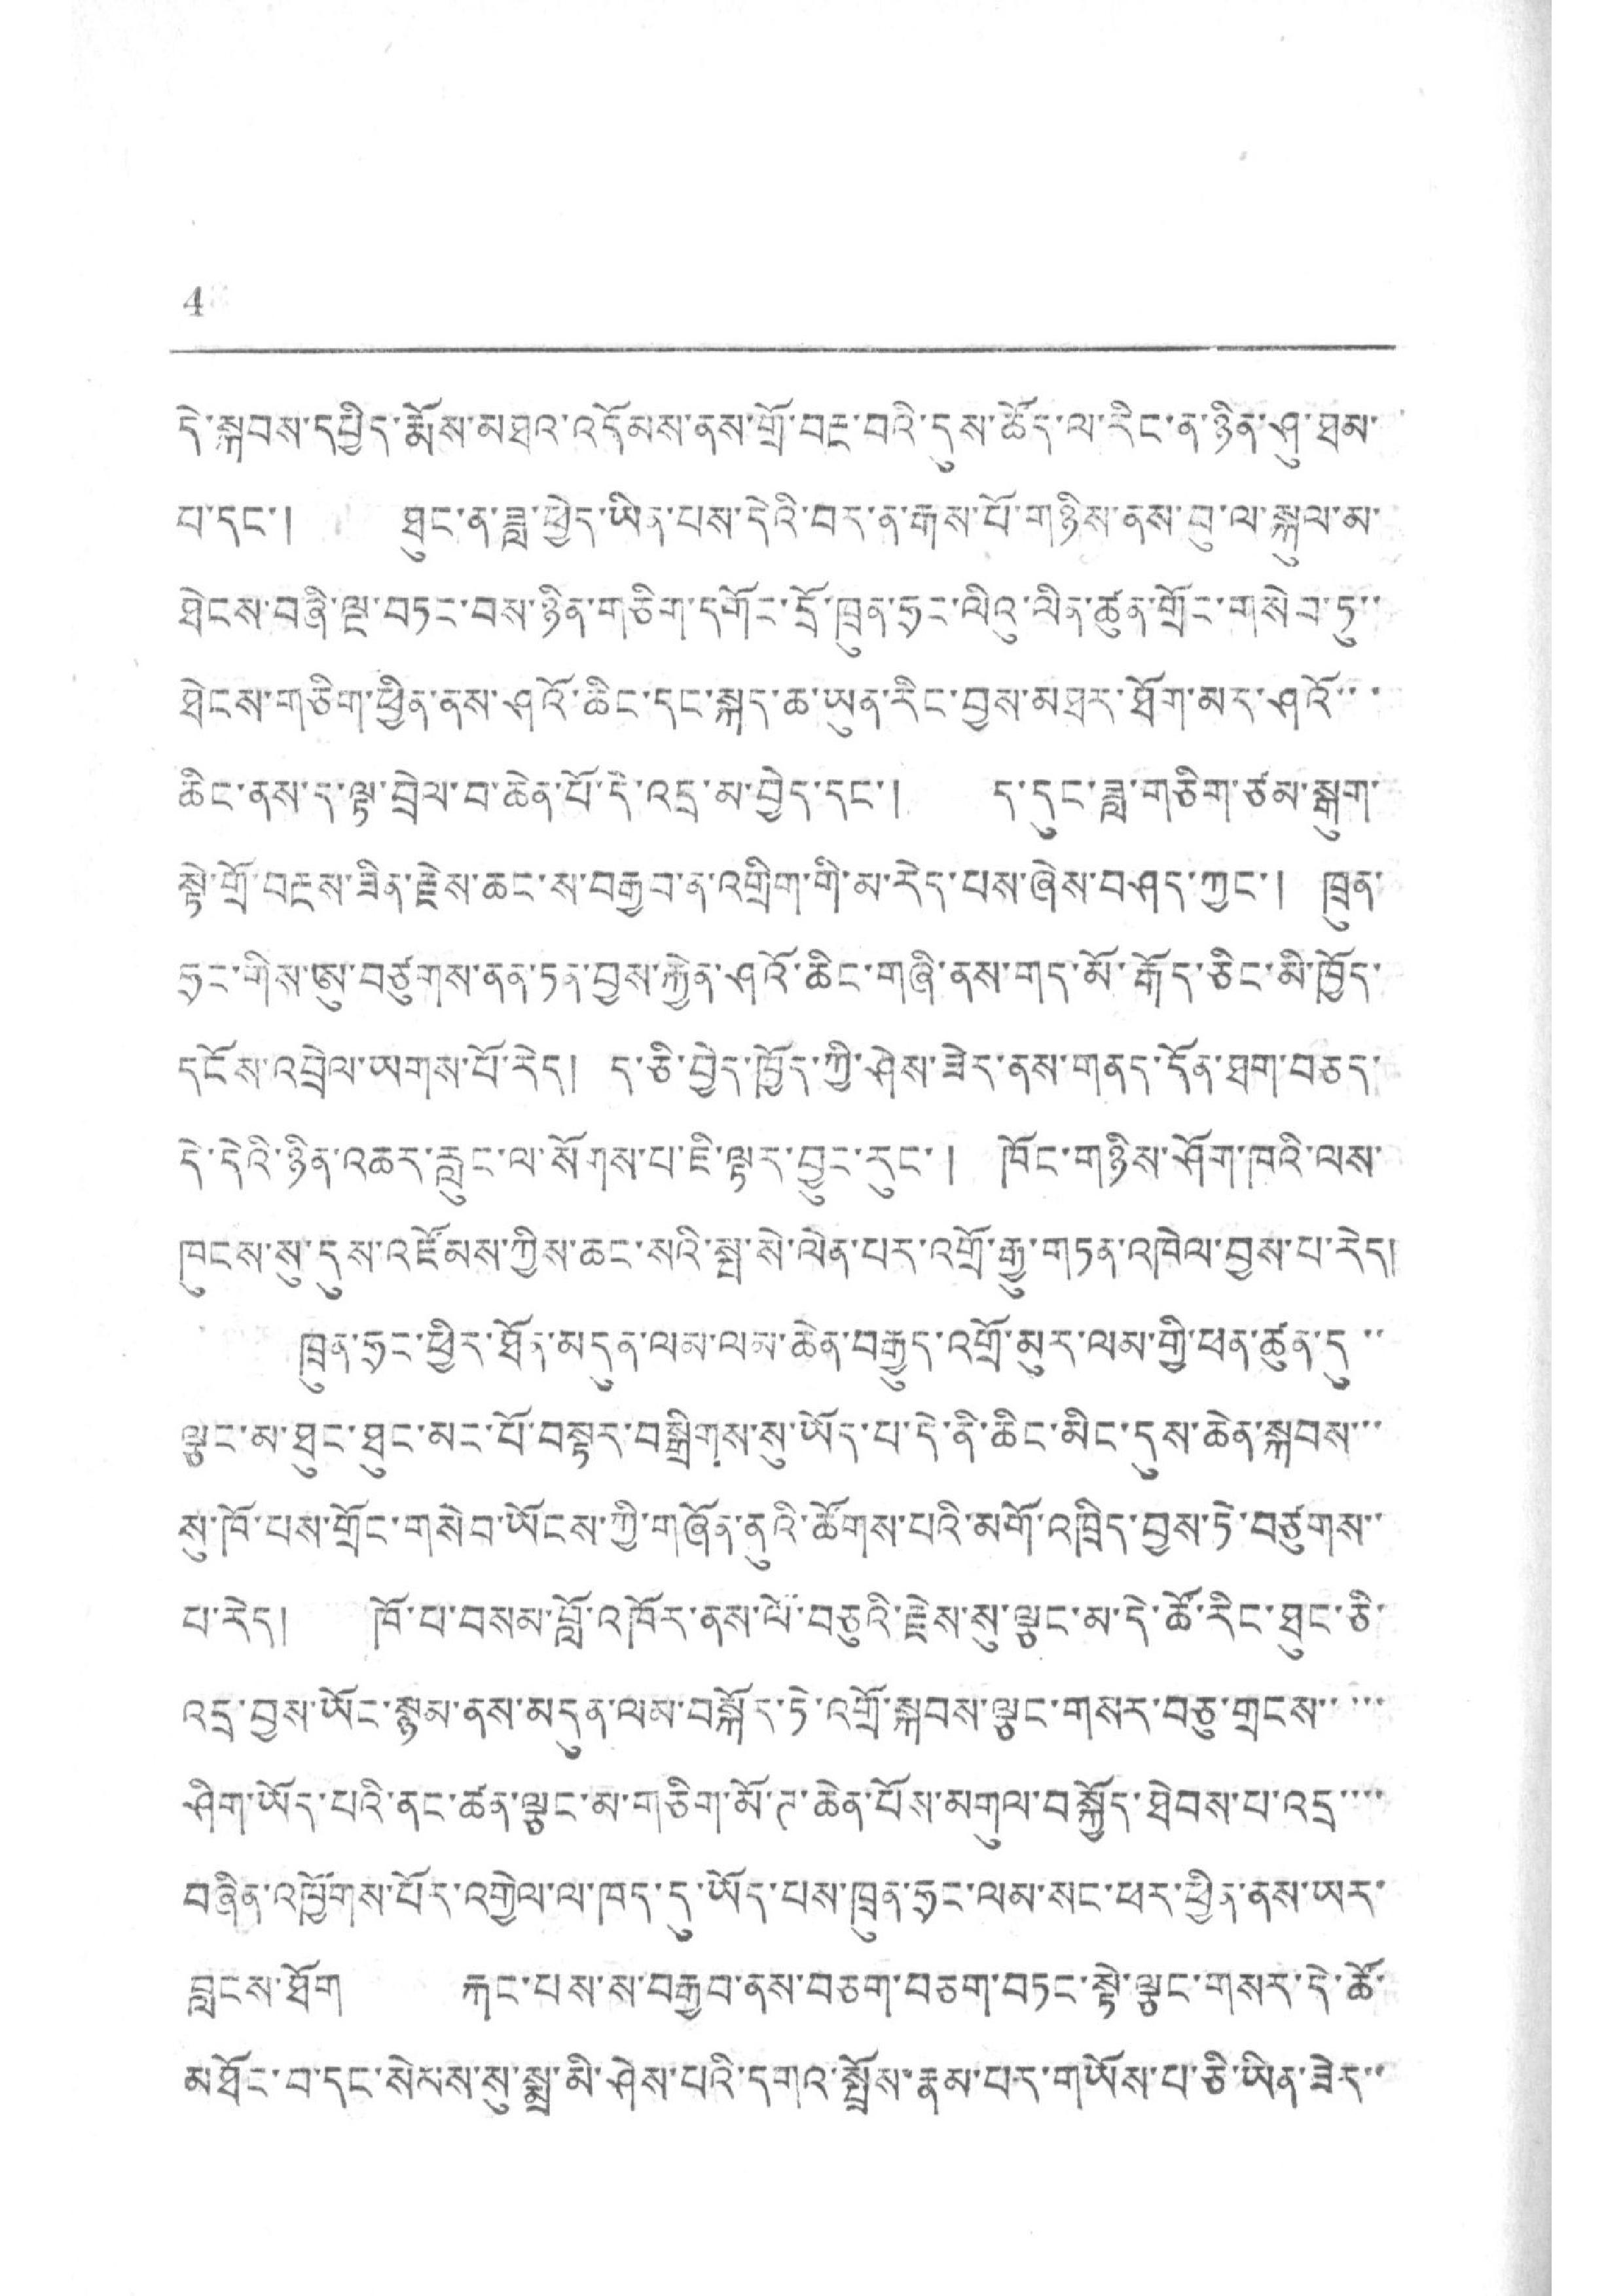4
དེ་སྐབས་དཔྱིད་རྨོས་མཐའ་འདོམས་ནས་གྲོ་བརྔ་བའེ་དུས་ཚོད་ལ་རིང་ན་ཉིན་ཤུ་ཐམ་
པ་དང་། ཐུང་ན་ཟླ་ཕྱེད་ཡིན་པས་དེའི་བར་ན་རྒས་པོ་གཉིས་ནས་བུ་ལ་སྐུལ་མ་
ཐེངས་བཞི་ལ་བཏང་བྱས་ཉིན་གཅིག་དགོང་དྲོ་ཁྲུན་ཧྲང་ལིའུ་ལིན་ཚུན་གྲོང་གསེབ་ཏུ་་
ཐེངས་གཅིག་ཕྱིན་ནས་ཤུའོ་ཆིང་དང་སྐད་ཆ་ཡུན་རིང་བྱས་མཐར་ཐོག་མར་ཤའོ་་་
ཆིང་ནས་ད་ལྟ་བྲེལ་བ་ཆེན་པོ་དེ་འདྲ་མ་བྱེད་དང་། ད་དུང་ཟླ་གཅིག་ཙམ་སྒུག་
སྟེ་གྲོ་བརྔས་ཟིན་རྗེས་ཆང་ས་བརྒྱབ་ན་འགྲིག་གི་མ་རེད་པས་ཞེས་བཤད་ཀྱང་། ཁྲུན་
ཧྲང་གིས་ཨུ་བཙུགས་ནན་ཏན་བྱས་རྐྱེན་ཤུའོ་ཆིང་གཞི་ནས་གད་མོ་རྒོད་ཅིང་མི་ཁྱོད་
དངོས་འབྲེལ་ཡགས་པོ་རེད། ད་ཅི་བྱེད་ཁྱོད་ཀྱི་ཤེས་ཟེར་ནས་གནད་དོན་ཐག་བཅད་
དེ་དེའི་ཉིན་འཆར་རླུང་ལ་སོགས་པ་ཇི་ལྟར་བྱུང་རུང་། ཁོང་གཉིས་ཤོག་ཁའི་ལས་
ཁུངས་སུ་དུས་འཛོམས་ཀྱིས་ཆང་སའི་སྤ་སེ་ལེན་པར་འགྲོ་རྒྱུ་གཏན་འཁེལ་བྱས་པ་རེད།
ཁྲུན་ཧྲང་ཕྱིར་ཐོན་མདུན་ལམ་ལམ་ཆེན་བརྒྱུད་འགྲོ་མུར་ལམ་གྱི་ཕན་ཚུན་དུ་་་
ལྕང་མ་ཐུང་ཐུང་མང་པོ་བསྟར་བསྒྲིགས་སུ་ཡོད་པ་དེ་ནི་ཆིང་མིང་དུས་ཆེན་སྐབས་་་
སུ་ཁོ་པས་གྲོང་གསེབ་ཡོངས་ཀྱི་གཞོན་ནུའི་ཚོགས་པའི་མགོ་འཁྲིད་བྱས་ཏེ་བཙུགས་་
པ་རེད། ཁོ་པ་བསམ་བློ་འཁོར་ནས་ལོ་བཅུའི་རྗེས་སུ་ལྕང་མ་དེ་ཚོ་རིང་ཐུང་ཅི་
འདྲ་བྱས་ཡོང་སྙམ་ནས་མདུན་ལམ་བསྐོར་ཏེ་འགྲོ་སྐབས་ལྕང་གསར་བཅུ་གྲངས་་་་་
ཤིག་ཡོད་པའི་ནང་ཚན་ལྕང་མ་གཅིག་མོ་ཊ་ཆེན་པོས་མགུལ་བསྐྱོད་ཐེབས་པ་འདྲ་་་་
བཞིན་འཁྱོགས་པོར་འགྱེལ་ལ་ཁད་དུ་ཡོད་པས་ཁྲུན་ཧྲང་ལམ་སུང་ཕར་ཕྱིན་ནས་ཡར་་
བླངས་ཐོག ཀྐང་པས་ས་བརྒྱབ་ནས་བཅག་བཅག་བཏང་སྟེ་ལྕང་གསར་དེ་ཚོ་
མཐོང་བ་དང་སེམས་སུ་སྨྲ་མི་ཤེས་པའི་དགའ་སྤྲོས་རྣམ་པར་གཡོས་པ་ཅི་ཡིན་ཟེར་་
